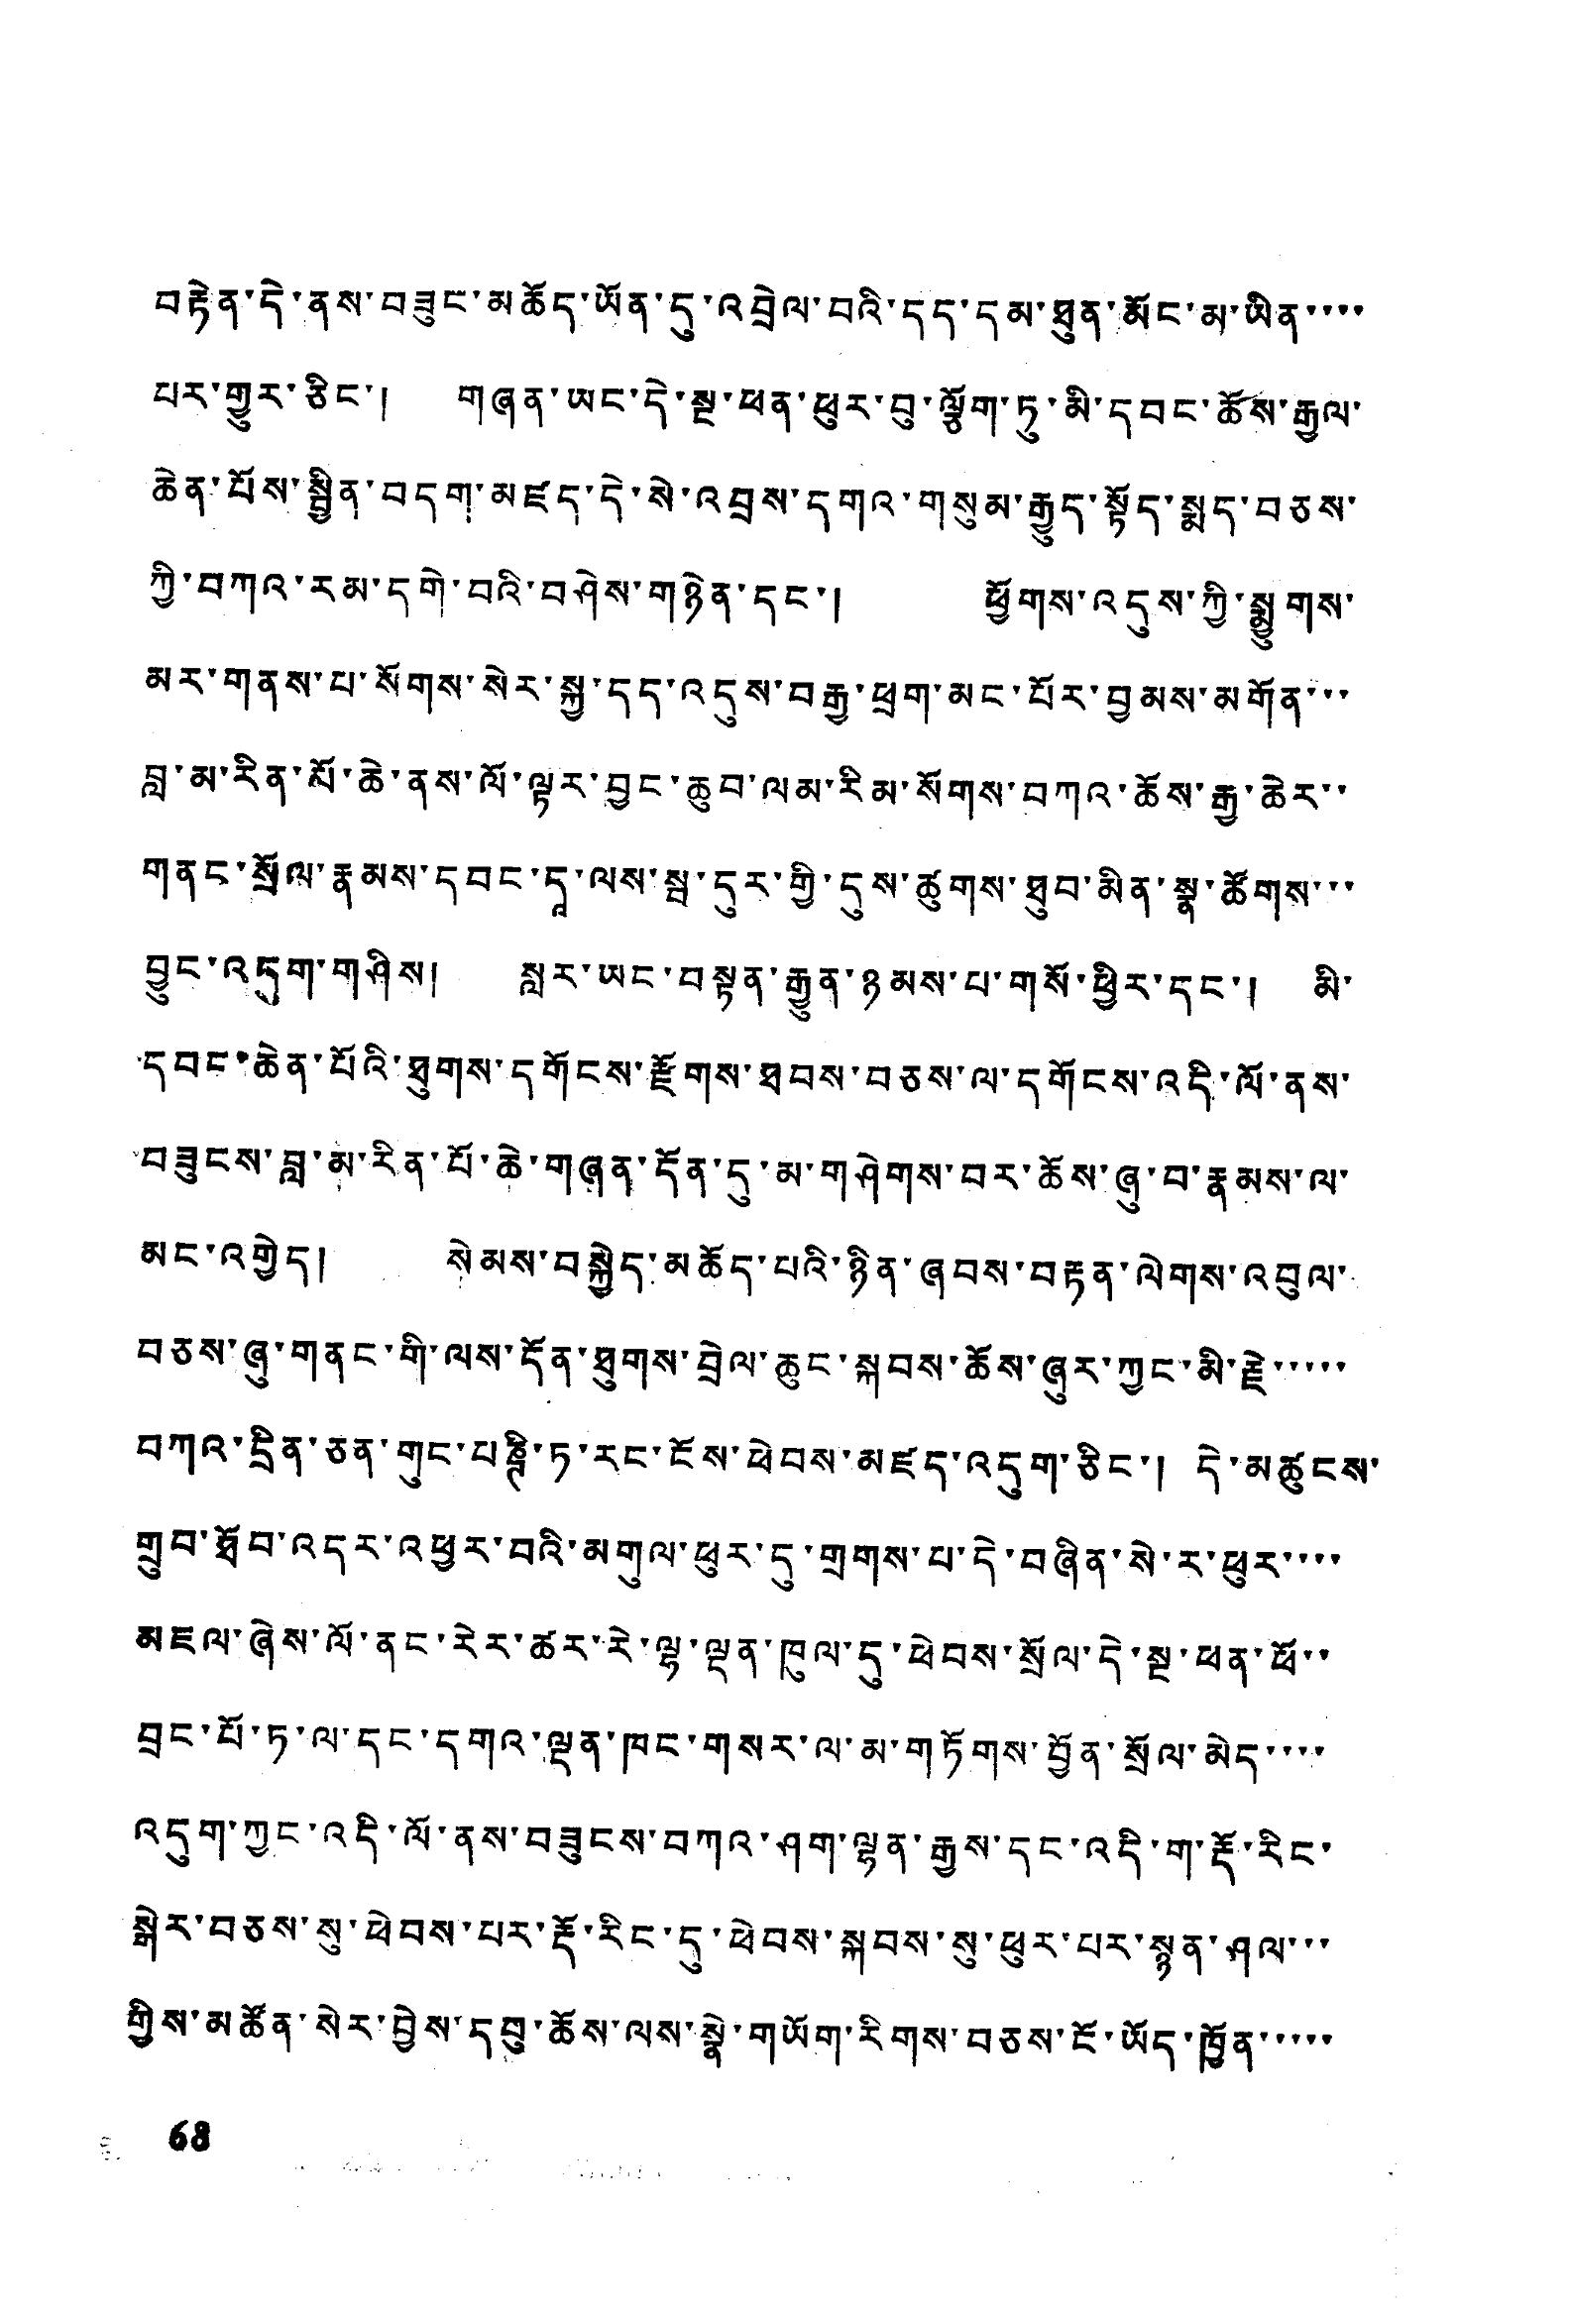བརྟེན་དེ་ནས་བཟུང་མཆོད་ཡོན་དུ་འབྲེལ་བའི་དད་དམ་ཐུན་མོང་མ་ཡིན་་་་
པར་གྱུར་ཅིང་། གཞན་ཡང་དེ་སྔ་ཕན་ཕུར་བུ་ལྕོག་ཏུ་མི་དབང་ཆོས་རྒྱལ་
ཆེན་པོས་སྦྱིན་བདག་མཛད་དེ་སེ་འབྲས་དགའ་གསུམ་རྒྱུད་སྟོད་སྨད་བཅས་
ཀྱི་བཀའ་རམ་དགེ་བའི་བཤེས་གཉེན་དང་། ཕྱོགས་འདུས་ཀྱི་སྨྱུགས་
མར་གནས་པ་སོགས་སེར་སྐྱ་དད་འདུས་བརྒྱ་ཕྲག་མང་པོར་བྱམས་མགོན་་་
བླ་མ་རིན་པོ་ཆེ་ནས་ལོ་ལྟར་བྱང་ཆུབ་ལམ་རིམ་སོགས་བཀའ་ཆོས་རྒྱ་ཆེར་་
གནང་སྲོལ་རྣམས་དབང་དའ་ལས་སྦ་དུར་གྱི་དུས་ཚུགས་ཐུབ་མིན་སྣ་ཚོགས་་་
བྱུང་འདུག་གཤིས། སླར་ཡང་བསྟན་རྒྱུན་ཉམས་པ་གསོ་ཕྱིར་དང་། མི་
དབང་ཆེན་པོའི་ཐུགས་དགོངས་རྫོགས་ཐབས་བཅས་ལ་དགོངས་འདི་ལོ་ནས་
བཟུངས་བླ་མ་རིན་པོ་ཆེ་གཞན་དོན་དུ་མ་གཤེགས་བར་ཆོས་ཞུ་བ་རྣམས་ལ་
མང་འགྱེད། སེམས་བསྐྱེད་མཆོད་པའི་ཉིན་ཞབས་བརྟན་ལེགས་འབུལ་
བཅས་ཞུ་གནང་གི་ལས་དོན་ཐུགས་བྲེལ་ཆུང་སྐབས་ཆོས་ཞུར་ཀྱང་མི་རྗེ་་་་་
བཀའ་དྲིན་ཅན་གུང་པཎྚི་ཏ་རང་ངོས་ཕེབས་མཛད་འདུག་ཅིང་། དེ་མཚུངས་
གྲུབ་ཐོབ་འདར་འཕྱར་བའི་མགུལ་ཕུར་དུ་གྲགས་པ་དེ་བཞིན་སེ་ར་ཕུར་་་་
མཇལ་ཞེས་ལོ་ནང་རེར་ཚར་རེ་ལྷ་ལྡན་ཁུལ་དུ་ཕེབས་སྲོལ་དེ་སྔ་ཕན་ཕོ་་
བྲང་པོ་ཏ་ལ་དང་དགའ་ལྡན་ཁང་གསར་ལ་མ་གཏོགས་བྱོན་སྲོལ་མེད་་་་
འདུག་ཀྱང་འདི་ལོ་ནས་བཟུངས་བཀའ་ཤག་ལྷན་རྒྱས་དང་འདི་ག་རྡོ་རིང་
སྒེར་བཅས་སུ་ཕེབས་པར་རྡོ་རིང་དུ་ཕེབས་སྐབས་སུ་ཕུར་པར་སྙན་ཤལ་་་
གྱིས་མཚོན་སེར་བྱེས་དབུ་ཆོས་ལས་སྣེ་གཡོག་རིགས་བཅས་ངོ་ཡོད་ཁྱོན་་་་་
68
